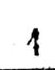4
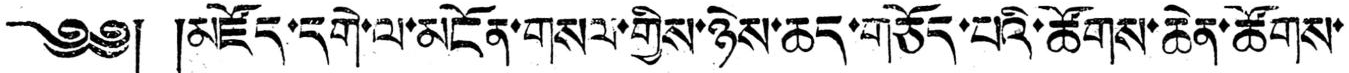༄༅། །མཛོད་དགེ་ལ་མངོན་གསལ་གྱིས་ཉེས་ཆད་གཅོད་པའི་ཚོགས་ཆེན་ཚོགས་
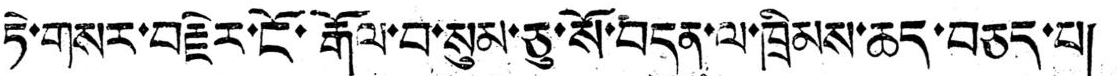ཏེ་གསར་བརྗེར་ངོ་རྒོལ་བ་སུམ་ཅུ་སོ་བདུན་ལ་ཁྲིམས་ཆད་བཅད་པ།
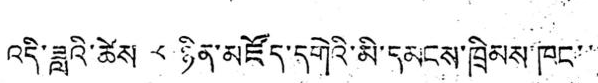འདི་ཟླའི་ཚེས ༨ ཉིན་མཛོད་དགེའི་མི་དམངས་ཁྲིམས ཁང་་་
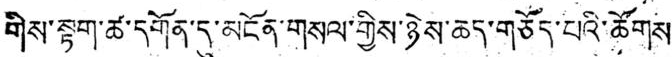གིས་སྟག་ཚ་དགོན་དུ་མངོན་གསལ་གྱིས་ཉེས་ཆད་གཅོད་པའི་ཚོགས་
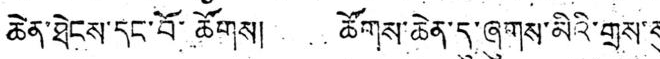ཆེན་ཐེངས་དང་བོ་ཚོགས། ཚོགས་ཆེན་དུ་ཞུགས་མིའི་གྲས་སུ་
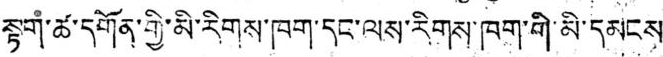སྟག་ཚ་དགོན་གྱི་མི་རིགས་ཁག་དང་ལས་རིགས་ཁག་གི་མི་དམངས་
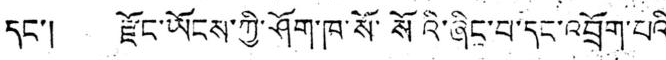དང་། རྫོང་ཡོངས་ཀྱི་ཤོག་ཁ་སོ་སོའི་ཞིང་པ་དང་འབྲོག་པའི་
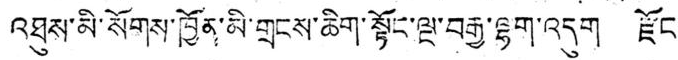འཐུས་མི་སོགས་ཁྱོན་མི་གྲངས་ཆིག་སྟོང་ལྔ་བརྒྱ་ལྷག་འདུག རྫོང་
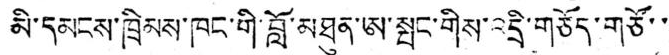མི་དམངས་ཁྲིམས་ཁང་གི་བློ་མཐུན་ཨ་སྤང་གིས་འདྲི་གཅོད་གཙོ་་་
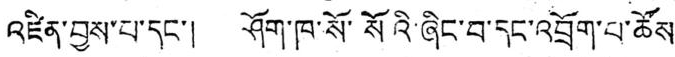འཛིན་བྱས་པ་དང་། ཤོག་ཁ་སོ་སོའི་ཞིང་བ་དང་འབྲོག་པ་ཚོས་
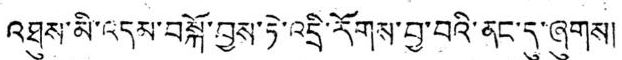འཐུས་མི་འདམ་བསྐོ་བྱས་ཏེ་འདྲི་རོགས་བྱ་བའི་ནང་དུ་ཞུགས།
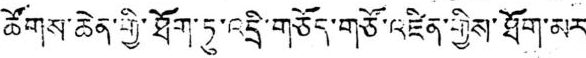ཚོགས་ཆེན་གྱི་ཐོག་ཏུ་འདྲི་གཅོད་གཙོ་འཛིན་གྱིས་ཐོག་མར་
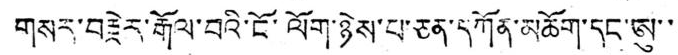གསར་བརྗེར་རྒོལ་བའི་ངོ་ལོག་ཉེས་པ་ཅན་དཀོན་མཆོག་དང་ཨུ་་་
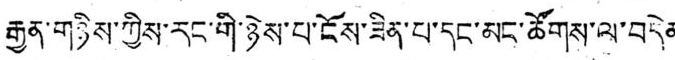རྒྱན་གཉིས་ཀྱིས་རང་གི་ཉེས་པ་ངོས་ཟིན་པ་དང་མང་ཚོགས་ལ་བདེན
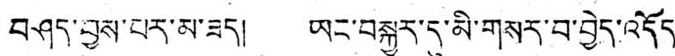བཤད་བྱས་པར་མ་ཟད། ཡང་བསྐྱར་དུ་མི་གསར་བ་བྱེད་འདོད་
